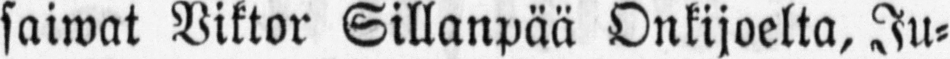saiwat Viktor Sillanpää Onkijoelta, Ju-
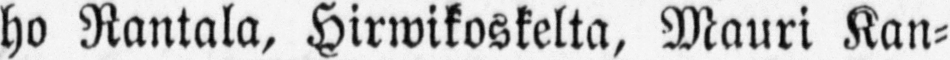ho Rantala, Hirwikoskelta, Mauri Kan-
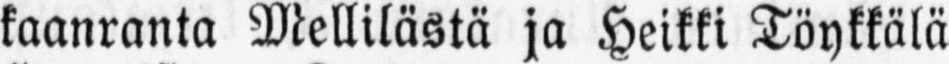kaanranta Mellilästä ja Heikki Töykkälä
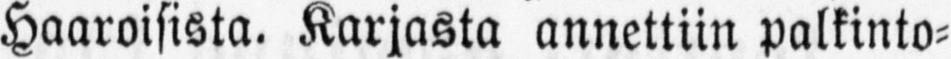Haaroisista. Karjasta annettiin palkinto-
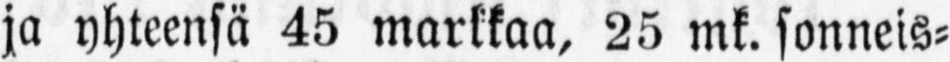ja yhteensä 45 markkaa, 25 mk. sonneis-
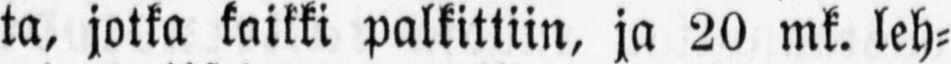ta, jotka kaikki palkittiin, ja 20 mk. leh-
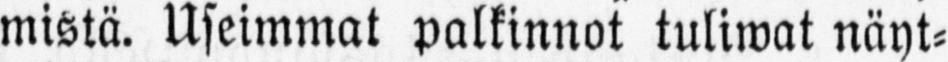mistä. Useimmat palkinnot tuliwat näyt-
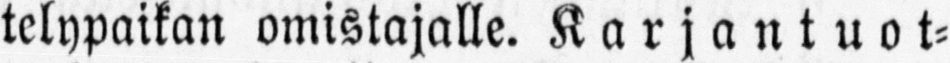telypaikan omistajalle. Karjantuot-
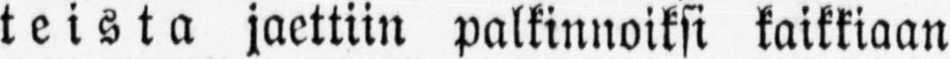teista jaettiin palkinnoiksi kaikkiaan
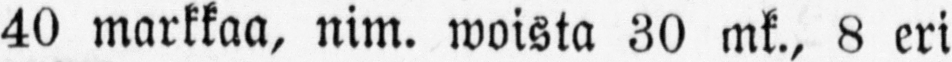40 markkaa, nim. woista 30 mk., 8 eri
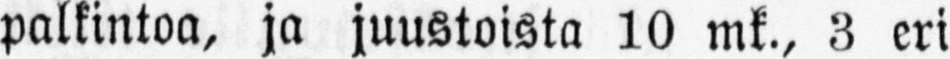palkintoa, ja juustoista 10 mk., 3 eri
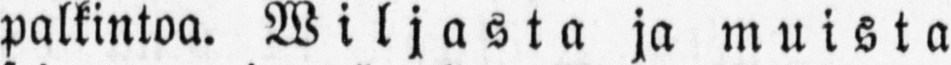palkintoa. Wiljasta ja muista
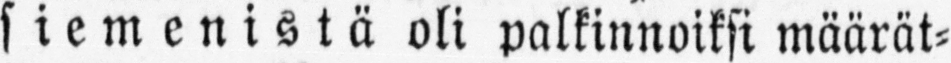siemenistä oli palkinnoiksi määrät-
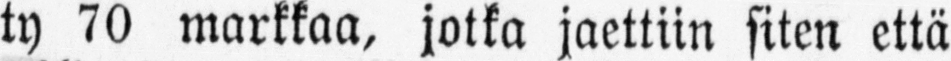ty 70 markkaa, jotka jaettiin siten että
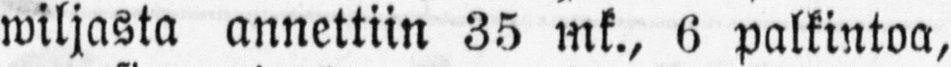wiljasta annettiin 35 mk., 6 palkintoa,
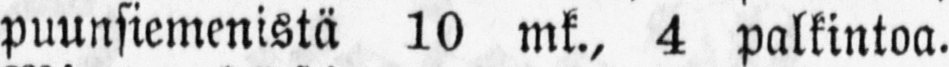puunsiemenistä 10 mk., 4 palkintoa.
